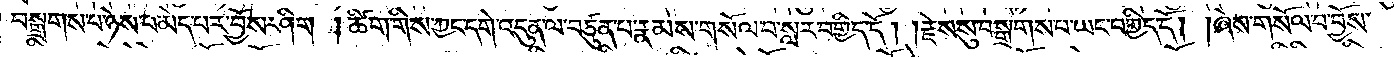བསྒྲགས་པ་ཉེས་པ་མེད་པར་བྱོས་ཤིག །ཚིག་གིས་ཀྱང་དགེ་འདུན་ལ་བཙུན་པ་རྣམས་གསོལ་བ་སླར་བགྱིད་དོ། །རྗེས་སུ་བསྒྲགས་པ་ཡང་བགྱིད་དོ། །ཞེས་གསོལ་བ་བྱོས་
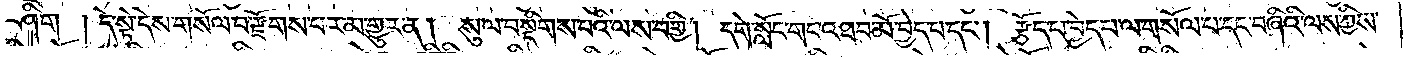ཤིག །དེ་སྟེ་དེས་གསོལ་བ་རྫོགས་པར་མ་གྱུར་ན། སུ་ལ་བསྡིགས་པའི་ལས་བགྱི། དགེ་སློང་གང་འཐབ་མོ་བྱེད་པ་དང༌། རྩོད་པ་བྱེད་པ་ལ་གསོལ་བ་དང་བཞིའི་ལས་ཀྱིས་
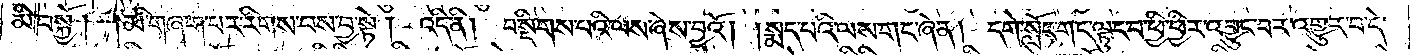མི་བསྐྱོ། མི་གཞག་པར་རིགས་པས་བྱ་སྟེ། འདི་ནི། བསྡིགས་པའི་ལས་ཞེས་བྱའོ། །སྨད་པའི་ལས་གང་ཞེ་ན། དགེ་སློང་གང་ལྟུང་བ་ཕྱི་ཕྱིར་འབྱུང་བར་འགྱུར་བ་དེ་
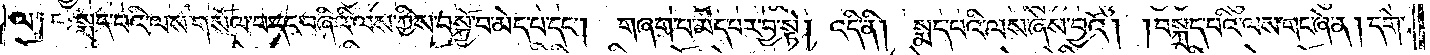ལ༑ སྨད་པའི་ལས་གསོལ་བ་དང་བཞིའི་ལས་ཀྱིས་བསྐྱོ་བ་མེད་པ་དང༌། གཞག་པ་མེད་པར་བྱ་སྟེ། འདི་ནི། སྨད་པའི་ལས་ཞེས་བྱའོ། །བསྐྲད་པའི་ལས་གང་ཞེ་ན། དགེ་
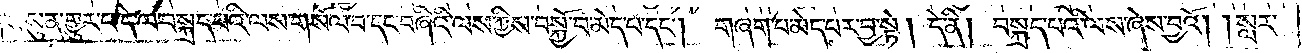སུན་གྱུར་པ་དེ་ལ་བསྐྲད་པའི་ལས་གསོལ་བ་དང་བཞིའི་ལས་ཀྱིས་བསྐྱོ་བ་མེད་པ་དང༌། གཞག་པ་མེད་པར་བྱ་སྟེ། དེ་ནི། བསྐྲད་པའི་ལས་ཞེས་བྱའོ། །སླར་
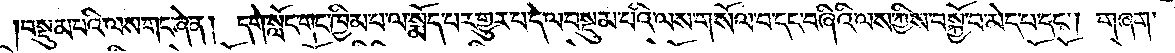བསྡུམ་པའི་ལས་གང་ཞེ་ན། དགེ་སློང་གང་ཁྱིམ་པ་ལ་སྨོད་པར་གྱུར་པ་དེ་ལ་བསྡུམ་པའི་ལས་གསོལ་བ་དང་བཞིའི་ལས་ཀྱིས་བསྐྱོ་བ་མེད་པ་དང༌། གཞག་
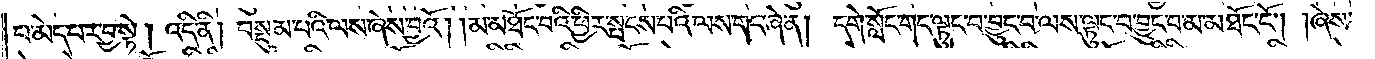པ་མེད་པར་བྱ་སྟེ། འདི་ནི། བསྡུམ་པའི་ལས་ཞེས་བྱའོ། །མ་མཐོང་བའི་ཕྱིར་སྤངས་པའི་ལས་གང་ཞེ་ན། དགེ་སློང་གང་ལྟུང་བ་བྱུང་བ་ལས་ལྟུང་བ་བྱུང་བ་མ་མཐོང་ངོ༌། །ཞེས་
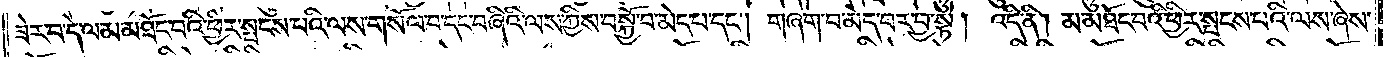ཟེར་བ་དེ་ལ་མ་མཐོང་བའི་ཕྱིར་སྤངས་པའི་ལས་གསོལ་བ་དང་བཞིའི་ལས་ཀྱིས་བསྐྱོ་བ་མེད་པ་དང༌། གཞག་པ་མེད་པར་བྱ་སྟེ། འདི་ནི། མ་མཐོང་བའི་ཕྱིར་སྤངས་པའི་ལས་ཞེས་
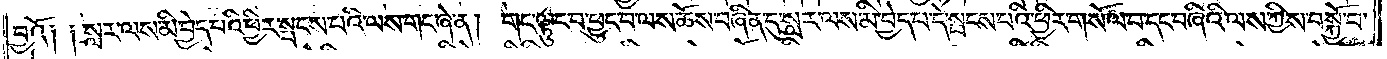བྱའོ༑ ༑སླར་ལས་མི་བྱེད་པའི་ཕྱིར་སྤངས་པའི་ལས་གང་ཞེ་ན། གང་ལྟུང་བ་ཕྱུང་བ་ལས་ཆོས་བཞིན་དུ་སླར་ལས་མི་བྱེད་པ་དེ་སྤངས་པའི་ཕྱིར་གསོལ་བ་དང་བཞིའི་ལས་ཀྱིས་བསྐྱོ་བ་
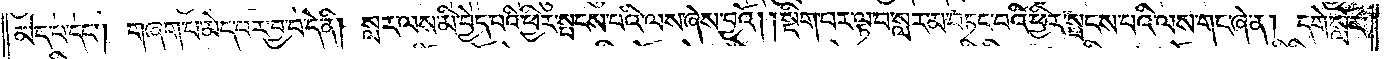མེད་པ་དང༌། གཞག་པ་མེད་པར་བྱ་བ་དེ་ནི། སླར་ལས་མི་བྱེད་པའི་ཕྱིར་སྤངས་པའི་ལས་ཞེས་བྱའོ། །སྡིག་པར་ལྟ་བ་སླར་མ་བཏང་བའི་ཕྱིར་སྤངས་པའི་ལས་གང་ཞེ་ན། དགེ་སློང་
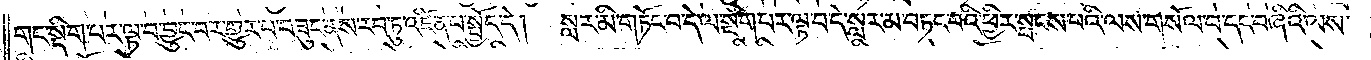གང་སྡིག་པར་ལྟ་བ་བྱུང་བར་གྱུར་པ་བཟུང་ནས་རབ་ཏུ་འཛིན་པ་སྤྱོད་དེ། སླར་མི་གཏོང་བ་དེ་ལ་སྡིག་པར་ལྟ་བ་དེ་སླར་མ་བཏང་བའི་ཕྱིར་སྤངས་པའི་ལས་གསོལ་བ་དང་བཞིའི་ལས་
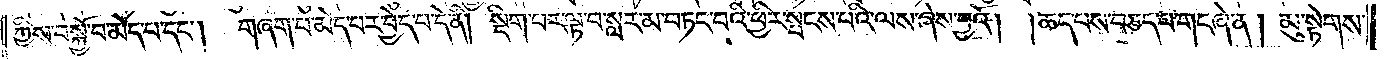ཀྱིས་བསྐྱོ་བ་མེད་པ་དང༌། གཞག་པ་མེད་པར་བྱེད་པ་དེ་ནི། སྡིག་པར་ལྟ་བ་སླར་མ་བཏང་བའི་ཕྱིར་སྤངས་པའི་ལས་ཞེས་བྱའོ། །ཆད་པས་བཅད་པ་གང་ཞེ་ན། མུ་སྟེགས་
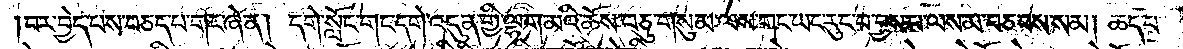བར་བྱེད་པས་བཅད་པ་གང་ཞེ་ན། དགེ་སློང་གང་དགེ་འདུན་གྱི་ལྷག་མའི་ཆོས་བཅུ་གསུམ་ལས་གང་ཡང་རུང་བ་བྱས་པ་ལས་མ་བཅབས་སམ། ཆད་པ་
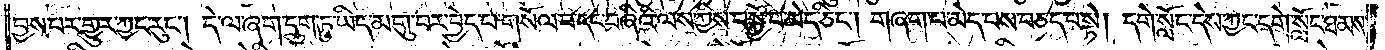བྱས་པར་གྱུར་ཀྱང་རུང༌། དེ་ལ་ཞག་དྲུག་ཏུ་ཡིད་མགུ་བར་བྱེད་པ་གསོལ་བ་དང་བཞིའི་ལས་ཀྱིས་བསྐྱོ་བ་མེད་ཅིང༌། གཞག་པ་མེད་པས་བཅད་པ་སྟེ། དགེ་སློང་དེས་ཀྱང་དགེ་སློང་ཐམས་
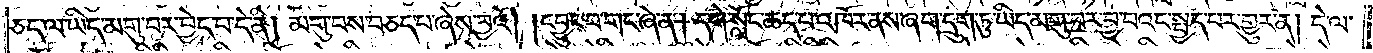ཅད་ལ་ཡིད་མགུ་བར་བྱེད་པ་དེ་ནི། མགུ་བས་བཅད་པ་ཞེས་བྱའོ། །དབྱུང་བ་གང་ཞེ་ན། དགེ་སློང་ཆད་པ་འཁོར་ནས་ཞག་དྲུག་ཏུ་ཡིད་མགུ་བར་བྱ་བའང་སྤྱད་པར་གྱུར་ན། དེ་ལ་
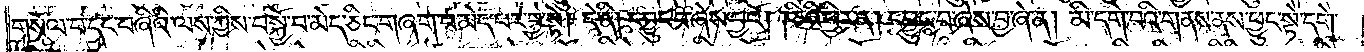གསོལ་བ་དང་བཞིའི་ལས་ཀྱིས་བསྐྱོ་བ་མེད་ཅིང་གཞག་པ་མེད་པར་བྱ་སྟེ། དེ་ནི། དབྱུང་བ་ཞེས་བྱའོ། །ཅིའི་ཕྱིར་ན། དབྱུང་བ་ཞེས་བྱ་ཞེ་ན། མི་དགེ་བའི་གནས་ནས་ཕྱུང་སྟེ་དགེ་
